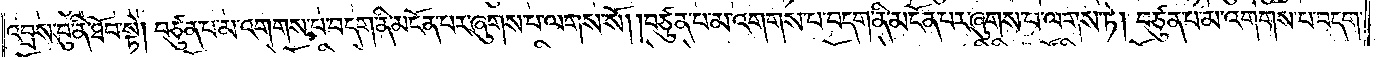འབྲས་བུ་ནི་ཐོབ་སྟེ། བཙུན་པ་མ་འགགས་པ་བདག་ནི་མངོན་པར་ཞུགས་པ་ལགས་སོ། །བཙུན་པ་མ་འགགས་པ་བདག་ནི་མངོན་པར་ཞུགས་པ་ལགས་ཏེ། བཙུན་པ་མ་འགགས་པ་བདག་
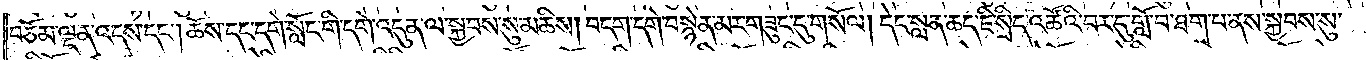བཅོམ་ལྡན་འདས་དང༌། ཆོས་དང་དགེ་སློང་གི་དགེ་འདུན་ལ་སྐྱབས་སུ་མཆིས། བདག་དགེ་བསྙེན་མར་གཟུང་དུ་གསོལ། དེང་སླན་ཆད་ཇི་སྲིད་འཚོའི་བར་དུ་གློ་བ་ཐག་པ་ནས་སྐྱབས་སུ་
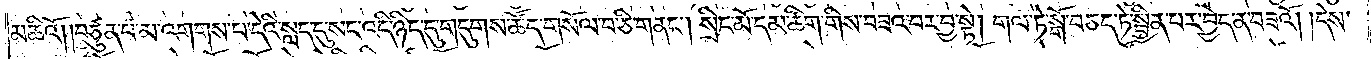མཆིའོ། །བཙུན་པ་མ་འགགས་པ་དེའི་སླད་དུ་སང་འདི་ཉིད་དུ་གདུགས་ཚོད་གསོལ་བ་ཅི་གནང༌། སྲིང་མོ་དམ་ཚིག་གིས་བཟའ་བར་བྱ་སྟེ། གལ་ཏེ་སྒོ་བཅད་ཏེ་སྦྱིན་པར་བྱེད་ན་བཟའོ། །དེས་
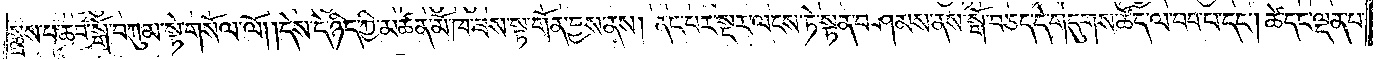སྨྲས་པ་ཆབ་སྒོ་བཀུམ་སྟེ་གསོལ་ལོ། །དེས་དེ་ཉིད་ཀྱི་མཚན་མོ་ཁ་ཟས་སྟ་གོན་བྱས་ནས། ནང་པར་སྔར་ལངས་ཏེ་སྟན་བཤམས་ནས་སྒོ་བཅད་དེ་གདུགས་ཚོད་ལ་བབ་པ་དང༌། ཚེ་དང་ལྡན་པ་
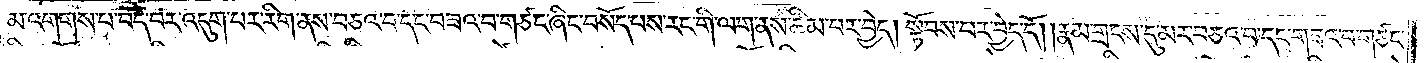མ་འགགས་པ་བདེ་བར་འདུག་པར་རིག་ནས་བཅའ་བ་དང་བཟའ་བ་གཙང་ཞིང་བསོད་པས་རང་གི་ལག་ནས་ཚིམ་པར་བྱེད། སྟོབས་པར་བྱེད་དོ། །རྣམ་གྲངས་དུ་མར་བཅའ་བ་དང་གཟའ་བ་གཙང་
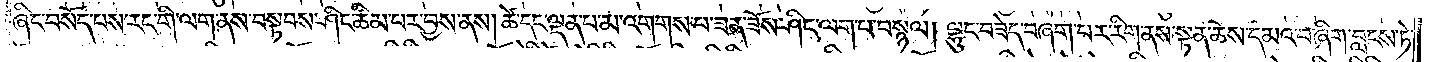ཞིང་བསོད་པས་རང་གི་ལག་ནས་བསྟབས་ཤིང་ཚིམ་པར་བྱས་ནས། ཚེ་དང་ལྡན་པ་མ་འགགས་པ་ཟན་ཟོས་ཤིང་ལག་པ་བསྙལ། ལྷུང་བཟེད་བཞག་པར་རིག་ནས་སྟན་ཆོས་དམའ་བ་ཞིག་བླངས་ཏེ་
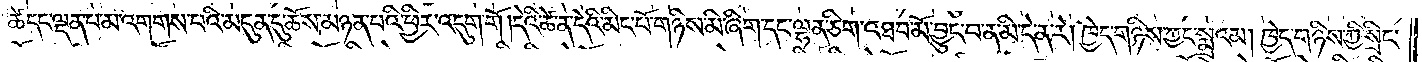ཚེ་དང་ལྡན་པ་མ་འགགས་པའི་མདུན་དུ་ཆོས་མཉན་པའི་ཕྱིར་འདུག་གོ །དེའི་ཚེ་ན་དེའི་མིང་པོ་གཉིས་མི་ཞིག་དང་ལྷན་ཅིག་འཐབ་མོ་བྱུང་བ་ན་མི་དེ་ན་རེ། ཁྱེད་གཉིས་ཀྱང་སྨྲའམ། ཁྱེད་གཉིས་ཀྱི་སྲིང་
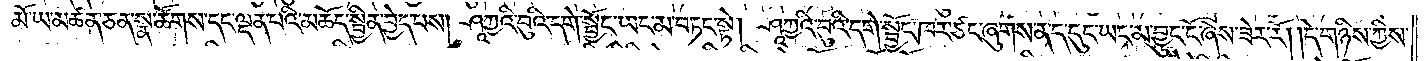མོ་ཡ་མཚན་ཅན་སྣ་ཚོགས་དང་ལྡན་པའི་མཆོད་སྦྱིན་བྱེད་པས། ཤཱཀྱའི་བུའི་དགེ་སྦྱོང་ཡང་མ་བཏང་སྟེ། ཤཱཀྱའི་བུའི་དགེ་སྦྱོང་ཁར་ཙང་ཞུགས་ན་ད་དུང་ཡང་མ་བྱུང་ངོ་ཞེས་ཟེར་རོ། །དེ་གཉིས་ཀྱིས་
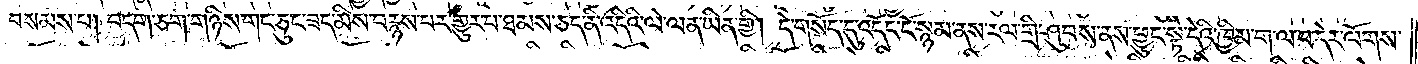བསམས་པ། བདག་ཅག་གཉིས་གང་ཅུང་ཟད་མིས་བརྙས་པར་གྱུར་པ་ཐམས་ཅད་ནི་འདིའི་ལེ་ལན་ཡིན་གྱི། དེ་གསོད་དུ་འདོང་ངོ་སྙམ་ནས་རལ་གྲི་ཤུབས་ནས་ཕྱུང་སྟེ་དེའི་ཁྱིམ་ག་ལ་བ་དེར་ལོགས་
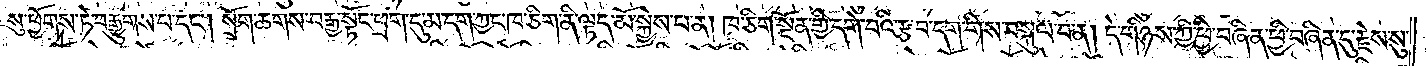སུ་ཕྱོགས་ཏེ་བརྒྱུགས་པ་དང༌། སྲོག་ཆགས་བརྒྱ་སྟོང་ཕྲག་དུ་མ་དག་ཀྱང་ཁ་ཅིག་ནི་ལྟད་མོ་སྐྱེས་པ་ན། ཁ་ཅིག་སྔོན་གྱི་དགེ་བའི་རྩ་བ་དག་གིས་བསྐུལ་བ་ན། དེ་གཉིས་ཀྱི་ཕྱི་བཞིན་ཕྱིར་བཞིན་དུ་རྗེས་སུ་
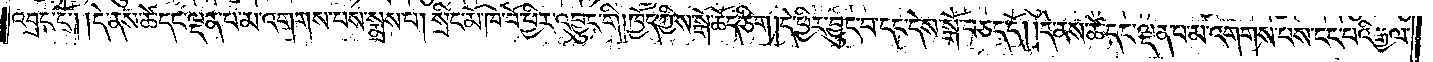འབྲང་ངོ༌། །དེ་ནས་ཚེ་དང་ལྡན་པ་མ་འགགས་པས་སྨྲས་པ། སྲིང་མོ་ཁོ་བོ་ཕྱིར་འབྱུང་གི། ཁྱོད་ཀྱིས་སྒོ་ཆོད་ཅིག །དེ་ཕྱིར་བྱུང་བ་དང་དེས་སྒོ་བཅད་དོ། །དེ་ནས་ཚེ་དང་ལྡན་པ་མ་འགགས་པས་ངང་པའི་རྒྱལ་
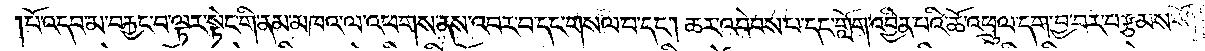པོ་འདབ་མ་བརྐྱང་བ་ལྟར་སྟེང་གི་ནམ་མཁའ་ལ་འཕགས་ནས་འབར་བ་དང་གསལ་བ་དང༌། ཆར་འབེབས་པ་དང་གློག་འབྱིན་པའི་ཆོ་འཕྲུལ་དག་བྱ་བར་བརྩམས་སོ། །
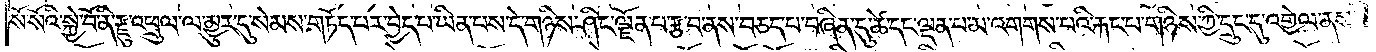སོ་སོའི་སྐྱེ་བོ་ནི་རྫུ་འཕྲུལ་ལ་མྱུར་དུ་སེམས་གཏོད་པར་བྱེད་པ་ཡིན་པས་དེ་གཉིས་ཤིང་ལྗོན་པ་རྩ་བ་ནས་བཅད་པ་བཞིན་དུ་ཚེ་དང་ལྡན་པ་མ་འགགས་པའི་རྐང་པ་གཉིས་ཀྱི་དྲུང་དུ་འགྱེལ་ནས་
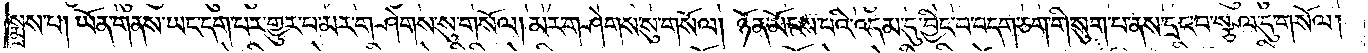སྨྲས་པ། ཡོན་གནས་ཡང་དག་པར་གྱུར་པ་མར་གཤེགས་སུ་གསོལ། མར་གཤེགས་སུ་གསོལ། ཉོན་མོངས་པའི་འདམ་དུ་བྱིང་བ་བདག་ཅག་གི་སུག་པ་ནས་དྲང་བ་སྩལ་དུ་གསོལ།
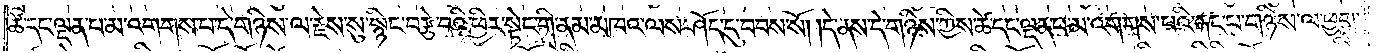ཚེ་དང་ལྡན་པ་མ་འགགས་པ་དེ་གཉིས་ལ་རྗེས་སུ་སྙིང་བརྩེ་བའི་ཕྱིར་སྟེང་གི་ནམ་མཁའ་ལས་ཤོད་དུ་བབས་སོ། །དེ་ནས་དེ་གཉིས་ཀྱིས་ཚེ་དང་ལྡན་པ་མ་འགགས་པའི་རྐང་པ་གཉིས་ལ་ཕྱག་
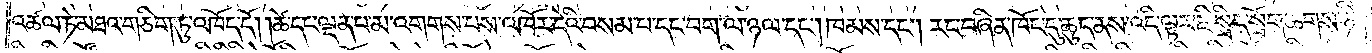འཚལ་ཏེ་མཐའ་གཅིག་ཏུ་འཁོད་དོ། །ཚེ་དང་ལྡན་པ་མ་འགགས་པས་འཁོར་དེའི་བསམ་པ་དང་བག་ལ་ཉལ་དང༌། ཁམས་དང༌། རང་བཞིན་ཁོང་དུ་ཆུད་ནས་འདི་ལྟར་ཇི་སྲིད་སྲོག་ཆགས་ཉི་
